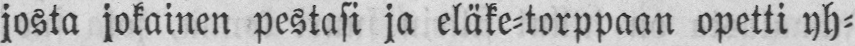josta jokainen pestasi ja eläke-torppaan opetti yh-
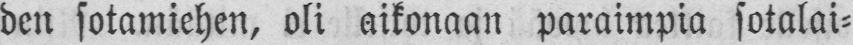den sotamiehen, oli aikonaan paraimpia sotalai-
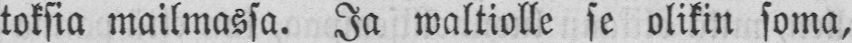toksia mailmassa. Ja waltiolle se olikin soma,
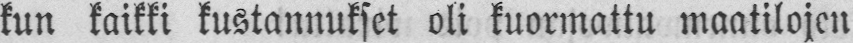kun kaikki kustannukset oli kuormattu maatilojen
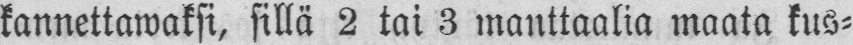kannettawaksi, sillä 2 tai 3 manttaalia maata kus-
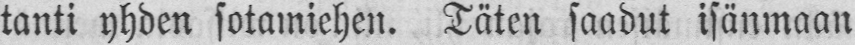tanti yhden sotamiehen. Täten saadut isänmaan
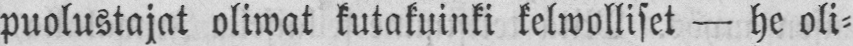Puolustajat oliwat kutakuinki kelwolliset — he oli-
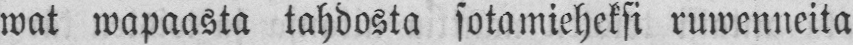wat wapaasta tahdosta sotamieheksi ruwenneita
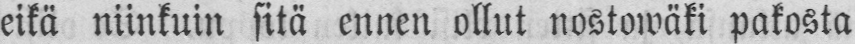eikä niinkuin sitä ennen ollut nostowäki pakosta
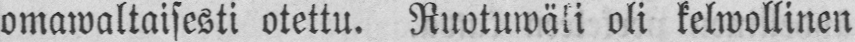omawaltaisesti otettu. Ruotuwäki oli kelwollinen
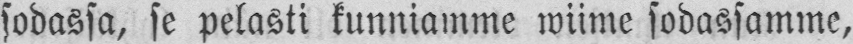sodassa, se pelasti kunniamme wiime sodassamme,
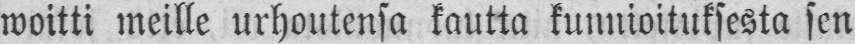woitti meille urhoutensa kautta kunnioituksesta sen
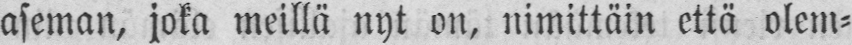aseman, joka meillä nyt on, nimittäin että olem-
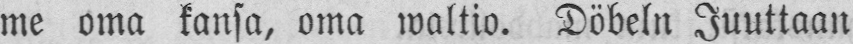me oma kansa, oma waltio. Döbeln Juuttaan
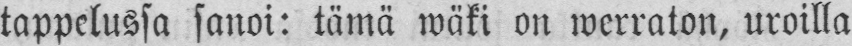tappelussa sanoi: tämä wäki on werraton, uroilla
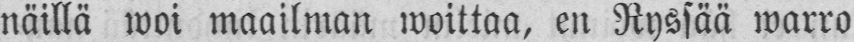näillä woi maailman woittaa, en Ryssää warro
